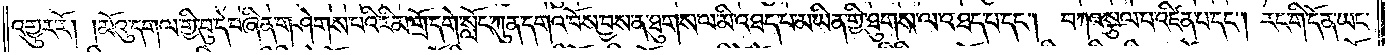འགྱུར་རོ། །མོའུ་དགལ་གྱི་བུ་དེ་བཞིན་གཤེགས་པའི་རིམ་གྲོ་དགེ་སློང་ཀུན་དགའ་བོས་བྱས་ན་ཐུགས་ལ་མི་འཐད་པ་མ་ཡིན་གྱི་ཐུགས་ལ་འཐད་པ་དང༌། བཀའ་སྩལ་པ་འཛིན་པ་དང༌། རང་གི་དོན་ཡང་
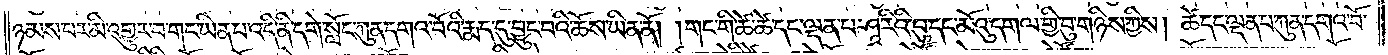ཉམས་པར་མི་འགྱུར་བ་གང་ཡིན་པ་འདི་ནི་དགེ་སློང་ཀུན་དགའ་བོའི་རྨད་དུ་བྱུང་བའི་ཆོས་ཡིན་ནོ། །གང་གི་ཚེ་ཚེ་དང་ལྡན་པ་ཤཱ་རིའི་བུ་དང་མོའུ་དགལ་གྱི་བུ་གཉིས་ཀྱིས། ཚེ་དང་ལྡན་པ་ཀུན་དགའ་བོ་
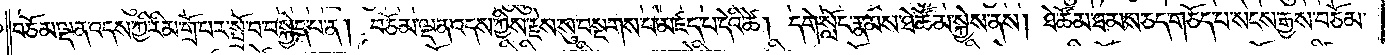བཅོམ་ལྡན་འདས་ཀྱི་རིམ་གྲོ་པར་སྤྲོ་བ་བསྐྱེད་པ་ན། བཅོམ་ལྡན་འདས་ཀྱིས་རྗེས་སུ་བསྔགས་པ་མཛད་པ་དེའི་ཚེ། དགེ་སློང་རྣམས་ཐེ་ཚོམ་སྐྱེས་ནས། ཐེ་ཚོམ་ཐམས་ཅད་གཅོད་པ་སངས་རྒྱས་བཅོམ་
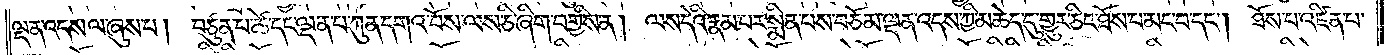ལྡན་འདས་ལ་ཞུས་པ། བཙུན་པ་ཚེ་དང་ལྡན་པ་ཀུན་དགའ་བོས་ལས་ཅི་ཞིག་བགྱིས་ན། ལས་དེའི་རྣམ་པར་སྨིན་པས་བཅོམ་ལྡན་འདས་ཀྱི་མཆེད་དུ་གྱུར་ཅིང་ཐོས་པ་མང་བ་དང༌། ཐོས་པ་འཛིན་པ་
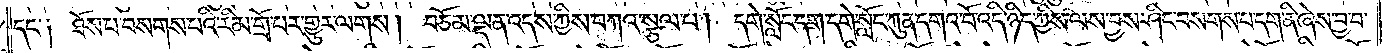དང༌། ཐོས་པ་བསགས་པའི་རིམ་གྲོ་བར་གྱུར་ལགས། བཅོམ་ལྡན་འདས་ཀྱིས་བཀའ་སྩལ་པ། དགེ་སློང་དག་དགེ་སློང་ཀུན་དགའ་བོ་འདི་ཉིད་ཀྱིས་ལས་བྱས་ཤིང་བསགས་པ་དག་ནི་ཞེས་བྱ་བ་
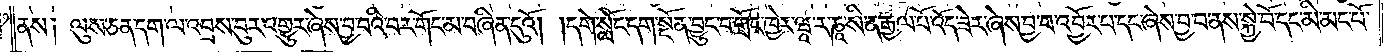ནས། ལུས་ཅན་དག་ལ་འབྲས་བུར་འགྱུར་ཞེས་བྱ་བའི་བར་གོང་མ་བཞིན་དུའོ། །དགེ་སློང་དག་སྔོན་བྱུང་བ་གྲོང་ཁྱེར་ཝཱ་ར་ཎཱ་སི་ན་རྒྱལ་པོ་འོད་ཟེར་ཞེས་བྱ་བ་འབྱོར་པ་དང་ཞེས་བྱ་བ་ནས་སྐྱེ་བོ་དང་མི་མང་པོ་
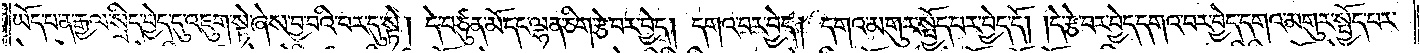ཡོད་པ་ན་རྒྱལ་སྲིད་བྱེད་དུ་འཇུག་སྟེ་ཞེས་བྱ་བའི་བར་དུ་སྟེ། དེ་བཙུན་མོ་དང་ལྷན་ཅིག་རྩེ་བར་བྱེད། དགའ་བར་བྱེད། དགའ་མགུར་སྤྱོད་པར་བྱེད་དོ། །དེ་རྩེ་བར་བྱེད་དགའ་བར་བྱེད་དགའ་མགུར་སྤྱོད་པར་
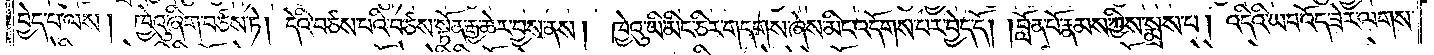བྱེད་པ་ལས། ཁྱེའུ་ཞིག་བཙས་ཏེ། དེའི་བཙས་པའི་བཙས་སྟོན་རྒྱ་ཆེར་བྱས་ནས། ཁྱེའུ་ཡི་མིང་ཅིར་གདགས་ཞེས་མིང་འདོགས་པར་བྱེད་དོ། །བློན་པོ་རྣམས་ཀྱིས་སྨྲས་པ། འདིའི་ཡབ་འོད་ཟེར་ལགས་
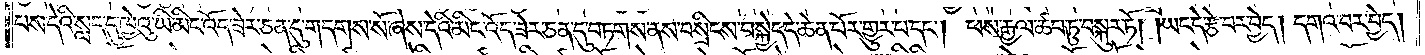པས་དེའི་སླད་དུ་ཁྱེའུ་ཡི་མིང་འོད་ཟེར་ཅན་དུ་གདགས་སོ་ཞེས་དེའི་མིང་འོད་ཟེར་ཅན་དུ་བཏགས་ནས་བསྲིངས་བསྐྱེད་དེ་ཆེན་པོར་གྱུར་པ་དང༌། ཕས་རྒྱལ་ཚབ་ཏུ་བསྐུར་ཏོ། །ཡང་དེ་རྩེ་བར་བྱེད། དགའ་བར་བྱེད།
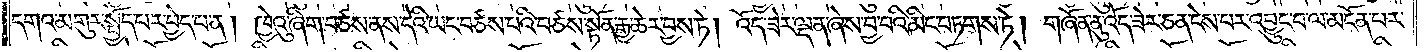དགའ་མགུར་སྤྱོད་པར་བྱེད་པ་ན། ཁྱེའུ་ཞིག་བཙས་ནས་དེའི་ཡང་བཙས་པའི་བཙས་སྟོན་རྒྱ་ཆེར་བྱས་ཏེ། འོད་ཟེར་ལྡན་ཞེས་བྱ་བའི་མིང་བཏགས་ཏེ། གཞོན་ནུ་འོད་ཟེར་ཅན་ངེས་པར་འབྱུང་བ་ལ་མངོན་པར་
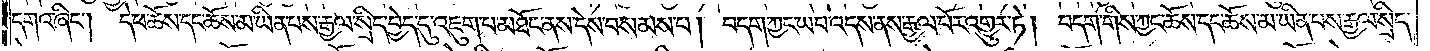དགའ་ཞིང༌། དེ་ཕ་ཆོས་དང་ཆོས་མ་ཡིན་པས་རྒྱལ་སྲིད་བྱེད་དུ་འཇུག་པ་མཐོང་ནས་དེས་བསམས་པ། བདག་ཀྱང་ཡབ་འདས་ནས་རྒྱལ་པོར་འགྱུར་ཏེ། བདག་གིས་ཀྱང་ཆོས་དང་ཆོས་མ་ཡིན་པས་རྒྱལ་སྲིད་
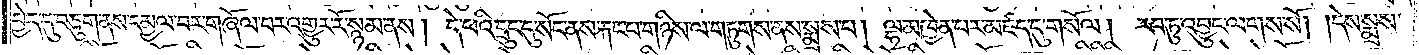བྱེད་དུ་བཅུག་ནས་དམྱལ་བར་གཞོལ་བར་འགྱུར་རོ་སྙམ་ནས། དེ་ཕའི་དྲུང་དུ་སོང་ནས་རྐང་པ་གཉིས་ལ་གཏུགས་ནས་སྨྲས་པ། ལྷ་མཁྱེན་པར་མཛད་དུ་གསོལ། རབ་ཏུ་འབྱུང་ལགས་སོ། །དེས་སྨྲས་
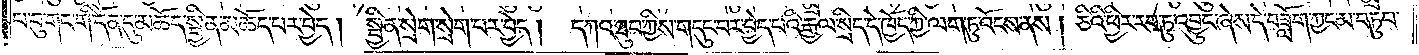པ་བུ་གང་གི་དོན་དུ་མཆོད་སྦྱིན་མཆོད་པར་བྱེད། སྦྱིན་སྲེག་སྲེག་པར་བྱེད།  དཀའ་ཐུབ་ཀྱིས་གདུང་བར་བྱེད་པའི་རྒྱལ་སྲིད་དེ་ཁྱོད་ཀྱི་ལག་ཏུ་འོངས་ནས། ཅིའི་ཕྱིར་རབ་ཏུ་འབྱུང་ཞེས་དེ་བཟློག་ཀྱང་མ་བཏུབ་
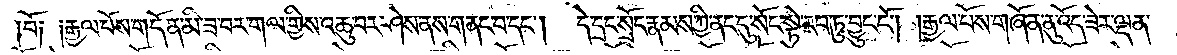བོ། །རྒྱལ་པོས་གདོན་མི་ཟ་བར་གལ་གྱིས་འཆུ་བར་ཤེས་ནས་གནང་བ་དང༌།  དེ་དྲང་སྲོང་རྣམས་ཀྱི་ནང་དུ་སོང་སྟེ་རབ་ཏུ་བྱུང་ངོ༌། །རྒྱལ་པོས་གཞོན་ནུ་འོད་ཟེར་ལྡན་
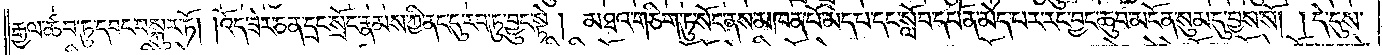རྒྱལ་ཚབ་ཏུ་དབང་བསྐུར་ཏོ། །འོད་ཟེར་ཅན་དྲང་སྲོང་རྣམས་ཀྱི་ནང་དུ་རབ་ཏུ་བྱུང་སྟེ། མཐའ་གཅིག་ཏུ་སོང་ནས་མཁན་པོ་མེད་པ་དང་སློབ་དཔོན་མེད་པར་རང་བྱང་ཆུབ་མངོན་སུམ་དུ་བྱས་སོ། །དེ་དུས་
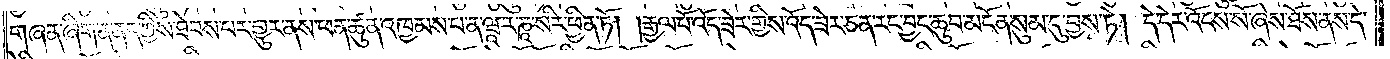གཞན་ཞིག་ན་ནད་ཀྱིས་ཐེབས་པར་གྱུར་ནས་ཕན་ཚུན་འཁྱམས་པ་ན་ཝཱ་ར་ཎཱ་སིར་ཕྱིན་ཏོ། །རྒྱལ་པོ་འོད་ཟེར་གྱིས་འོད་ཟེར་ཅན་རང་བྱང་ཆུབ་མངོན་སུམ་དུ་བྱས་ཏེ། དེ་དེར་འོངས་སོ་ཞེས་ཐོས་ནས་དེ་
